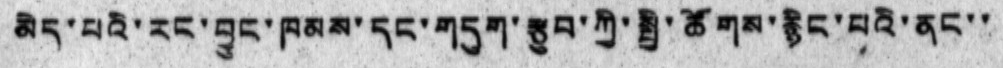མེད་པའི་རང་བྱུང་ཁམས་དང་གདུག་རྩུབ་ཀྱི་སྤྱི་ཚོགས་རྙིང་པའི་ནང་་
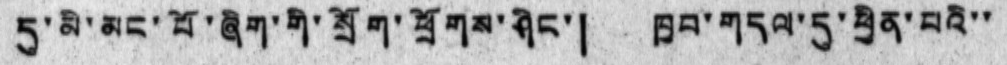དུ་མི་མང་པོ་ཞིག་གི་སྲོག་ཕྲོགས་ཤིང་། ཁྱབ་གདལ་དུ་ཕྱིན་པའི་་
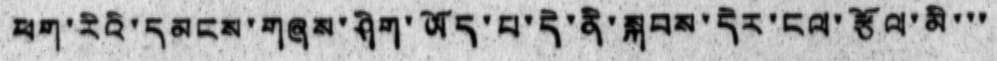ཕག་རིའི་དམངས་གཞས་ཤིག་ཡོད་པ་དེ་ནི་སྐབས་དེར་ངལ་རྩོལ་མི་་་
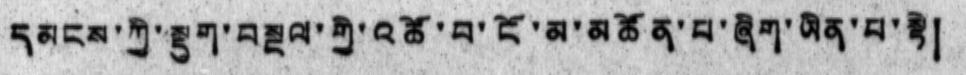དམངས་ཀྱི་སྡུག་བསྔལ་གྱི་འཚོ་བ་ངོ་མ་མཚོན་པ་ཞིག་ཡིན་པ་སྟེ།
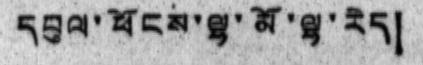དབུལ་ཕོངས་ལྷ་མོ་ལྷ་རེད།
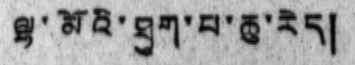ལྷ་མོའི་ཐུག་པ་ཆུ་རེད།
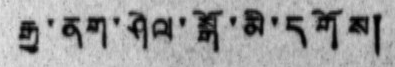རྒྱ་ནག་ཤེལ་སྒོ་མི་དགོས།
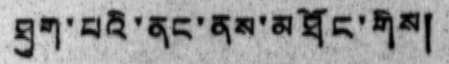ཐུག་པའི་ནང་ནས་ཐོང་གིས།
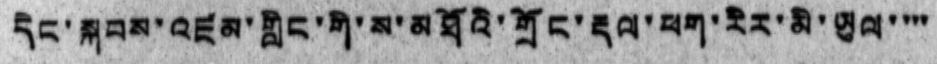དེང་སྐབས་འཛམ་གླིང་གི་ས་མཐོའི་གྲོང་རྡལ་ཕག་རིར་མི་ཡུལ་་་་
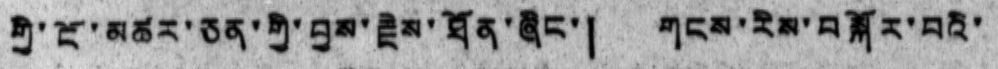གྱི་ངོ་མཚར་ཅན་གྱི་བྱས་རྗེས་ཐོན་ཞིང་། གངས་རིས་བསྐོར་བའི་
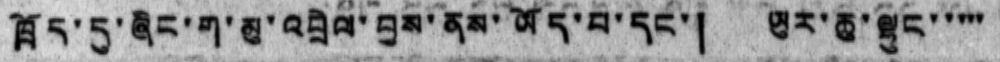ཁྲོད་དུ་ཞིང་ག་མུ་འབྲེལ་བྱས་ནས་ཡོད་པ་དང་། ཡུར་ཆུ་ལྷུང་་་་་
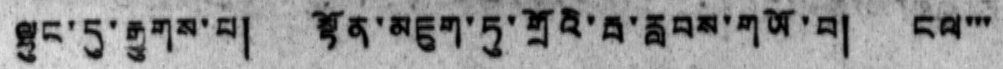ལྷུང་དུ་རྒྱུགས་པ། སྟོན་མཇུག་ཏུ་གྲོའི་རྦ་རླབས་གཡོ་བ། ངལ་་་
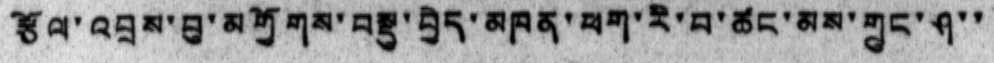རྩོལ་འབྲས་བུ་མགྱོགས་བསྡུ་བྱེད་མཁན་ཕག་རི་བ་ཚང་མས་གྲུང་ཤ་་
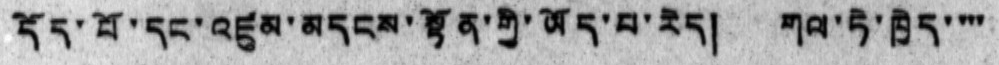དོད་པི་དང་འཛུམ་མདངས་སྟོན་གྱི་ཡོད་པ་རེད། གལ་ཏེ་ཁྱེད་་་་
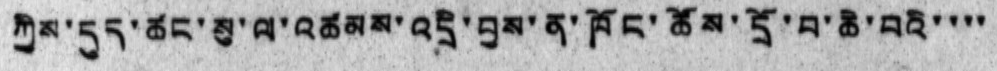ཀྱིས་དུད་ཚང་སུ་ལ་འཚམས་འདྲི་བྱས་ན་ཁོང་ཚོས་དྲོ་བ་ཆེ་བའི་་་་
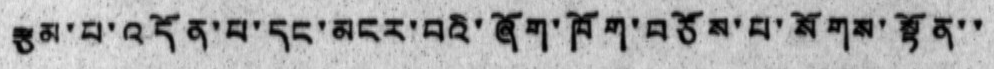རྩམ་པ་འདོན་པ་དང་མངར་བའི་ཞོག་ཁོག་བཅོས་པ་སོགས་སྟོན་་
